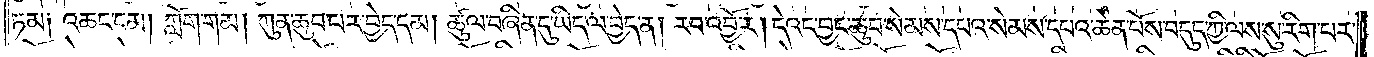ཏམ། འཆང་ངམ། ཀློག་གམ། ཀུན་ཆུབ་པར་བྱེད་དམ། ཚུལ་བཞིན་དུ་ཡིད་ལ་བྱེད་ན། རབ་འབྱོར། དེའང་བྱང་ཆུབ་སེམས་དཔའ་སེམས་དཔའ་ཆེན་པོས་བདུད་ཀྱི་ལས་སུ་རིག་པར་
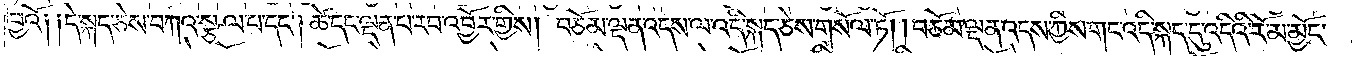བྱའོ༑ ༑དེ་སྐད་ཅེས་བཀའ་སྩལ་པ་དང༌། ཚེ་དང་ལྡན་པ་རབ་འབྱོར་གྱིས། བཅོམ་ལྡན་འདས་ལ་འདི་སྐད་ཅེས་གསོལ་ཏོ། །བཅོམ་ལྡན་འདས་ཀྱིས་གང་འདི་སྐད་དུ་འདིའི་རོ་མ་མྱོང་
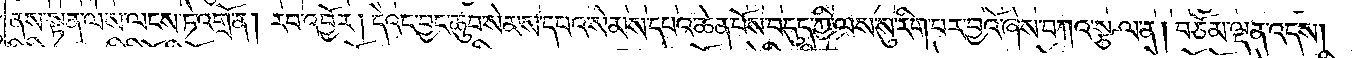ནས་སྟན་ལས་ལངས་ཏེ་འགྲོ་ན། རབ་འབྱོར། དེའང་བྱང་ཆུབ་སེམས་དཔའ་སེམས་དཔའ་ཆེན་པོས་བདུད་ཀྱི་ལས་སུ་རིག་པར་བྱའོ་ཞེས་བཀའ་སྩལ་ན། བཅོམ་ལྡན་འདས།
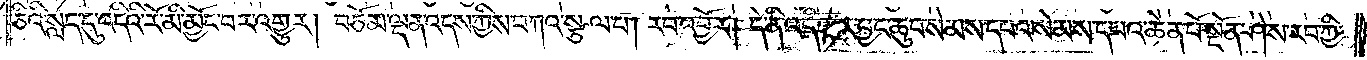ཅིའི་སླད་དུ་འདིའི་རོ་མི་མྱོང་བར་འགྱུར། བཅོམ་ལྡན་འདས་ཀྱིས་བཀའ་སྩལ་པ། རབ་འབྱོར། དེ་ནི་འདི་ལྟར་བྱང་ཆུབ་སེམས་དཔའ་སེམས་དཔའ་ཆེན་པོ་སྔོན་ཤེས་རབ་ཀྱི་
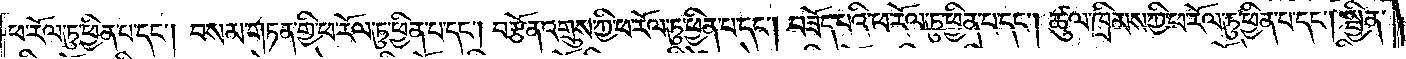ཕ་རོལ་ཏུ་ཕྱིན་པ་དང༌། བསམ་གཏན་གྱི་ཕ་རོལ་ཏུ་ཕྱིན་པ་དང༌། བརྩོན་འགྲུས་ཀྱི་ཕ་རོལ་ཏུ་ཕྱིན་པ་དང༌། བཟོད་པའི་ཕ་རོལ་ཏུ་ཕྱིན་པ་དང༌། ཚུལ་ཁྲིམས་ཀྱི་ཕ་རོལ་ཏུ་ཕྱིན་པ་དང༌། སྦྱིན་
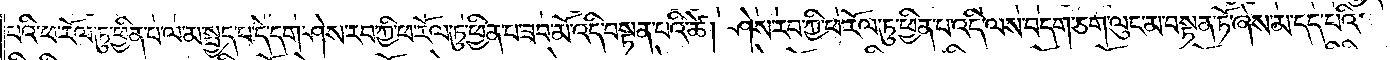པའི་ཕ་རོལ་ཏུ་ཕྱིན་པ་ལ་མ་སྤྱད་པ་དེ་དག་ཤེས་རབ་ཀྱི་ཕ་རོལ་ཏུ་ཕྱིན་པ་ཟབ་མོ་འདི་བསྟན་པའི་ཚེ། ཤེས་རབ་ཀྱི་ཕ་རོལ་ཏུ་ཕྱིན་པ་འདི་ལས་བདག་ཅག་ལུང་མ་བསྟན་ཏོ་ཞེས་མ་དད་པའི་
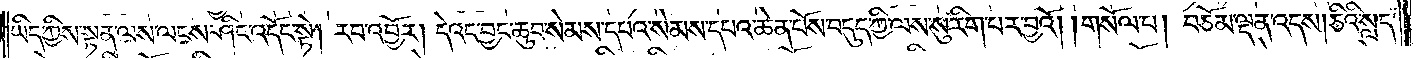ཡིད་ཀྱིས་སྟན་ལས་ལངས་ཤིང་འདོང་སྟེ། རབ་འབྱོར། དེའང་བྱང་ཆུབ་སེམས་དཔའ་སེམས་དཔའ་ཆེན་པོས་བདུད་ཀྱི་ལས་སུ་རིག་པར་བྱའོ། །གསོལ་པ། བཅོམ་ལྡན་འདས། ཅིའི་སླད་
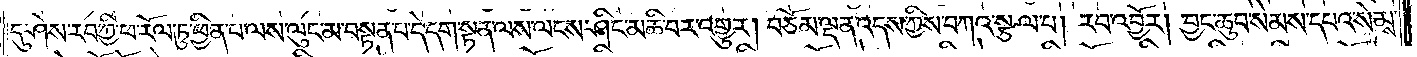དུ་ཤེས་རབ་ཀྱི་ཕ་རོལ་ཏུ་ཕྱིན་པ་ལས་ལུང་མ་བསྟན་པ་དེ་དག་སྟན་ལས་ལངས་ཤིང་མཆི་བར་འགྱུར། བཅོམ་ལྡན་འདས་ཀྱིས་བཀའ་སྩལ་པ། རབ་འབྱོར། བྱང་ཆུབ་སེམས་དཔའ་སེམས་
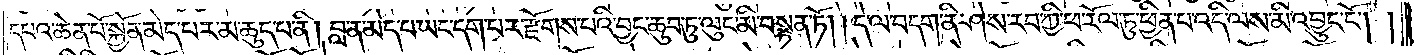དཔའ་ཆེན་པོ་སྐྱོན་མེད་པར་མ་ཆུད་པ་ནི། བླ་ན་མེད་པ་ཡང་དག་པར་རྫོགས་པའི་བྱང་ཆུབ་ཏུ་ལུང་མི་བསྟན་ཏོ། །དེ་ལ་བདག་ནི་ཤེས་རབ་ཀྱི་ཕ་རོལ་ཏུ་ཕྱིན་པ་འདི་ལས་མི་འབྱུང་ངོ༌། །
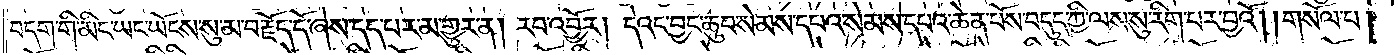བདག་གི་མིང་ཡང་ཡོངས་སུ་མ་བརྗོད་དོ་ཞེས་དད་པར་མ་གྱུར་ན། རབ་འབྱོར། དེའང་བྱང་ཆུབ་སེམས་དཔའ་སེམས་དཔའ་ཆེན་པོས་བདུད་ཀྱི་ལས་སུ་རིག་པར་བྱའོ། །གསོལ་པ།
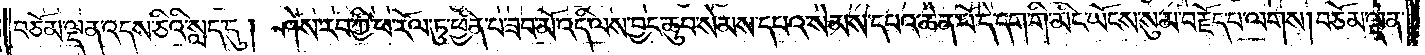བཅོམ་ལྡན་འདས་ཅིའི་སླད་དུ། ཤེས་རབ་ཀྱི་ཕ་རོལ་ཏུ་ཕྱིན་པ་ཟབ་མོ་འདི་ལས་བྱང་ཆུབ་སེམས་དཔའ་སེམས་དཔའ་ཆེན་པོ་དེ་དག་གི་མིང་ཡོངས་སུ་མ་བརྗོད་པ་ལགས། བཅོམ་ལྡན་
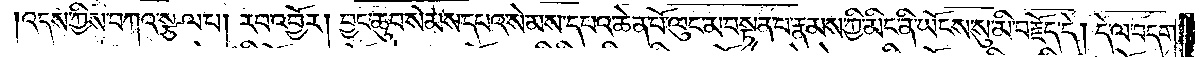འདས་ཀྱིས་བཀའ་སྩལ་པ། རབ་འབྱོར། བྱང་ཆུབ་སེམས་དཔའ་སེམས་དཔའ་ཆེན་པོ་ལུང་མ་བསྟན་པ་རྣམས་ཀྱི་མིང་ནི་ཡོངས་སུ་མི་བརྗོད་དེ། དེ་ལ་བདག་
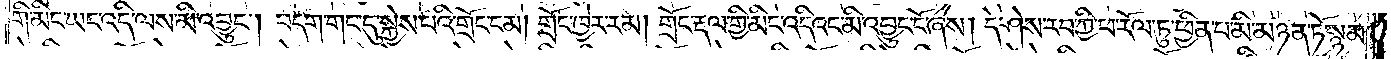གི་མིང་ཡང་འདི་ལས་མི་འབྱུང༌། བདག་གང་དུ་སྐྱེས་པའི་གྲོང་ངམ། གྲོང་ཁྱེར་རམ། གྲོང་རྡལ་གྱི་མིང་འདིའང་མི་འབྱུང་ངོ་ཞེས། དེ་ཤེས་རབ་ཀྱི་ཕ་རོལ་ཏུ་ཕྱིན་པ་མི་མཉན་ཏོ་སྙམ་
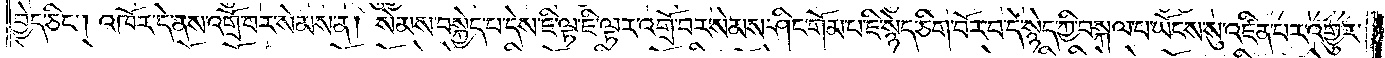བྱེད་ཅིང༌། འཁོར་དེ་ནས་འགྲོ་བར་སེམས་ན། སེམས་བསྐྱེད་པ་དེས་ཇི་ལྟ་ཇི་ལྟར་འགྲོ་བར་སེམས་ཤིང་གོམ་པ་ཇི་སྙེད་ཅིག་བོར་བ་དེ་སྙེད་ཀྱི་བསྐལ་བ་ཡོངས་སུ་འཛིན་པར་འགྱུར་
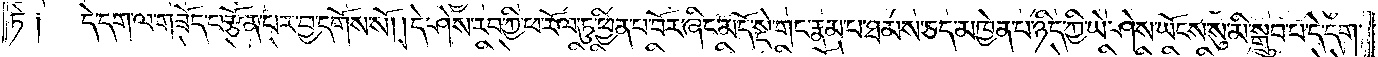ཏེ༑   དེ་དག་ལ་བཟོད་པ་ལ་བརྩོན་པར་བྱ་དགོས་སོ། །དེ་ཤེས་རབ་ཀྱི་ཕ་རོལ་ཏུ་ཕྱིན་པ་བོར་ཞིང་མདོ་སྡེ་གང་རྣམ་པ་ཐམས་ཅད་མཁྱེན་པ་ཉིད་ཀྱི་ཡེ་ཤེས་ཡོངས་སུ་མི་སྒྲུབ་པ་དེ་དག་
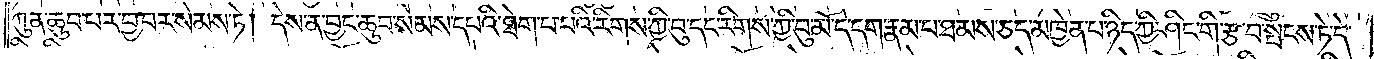ཀུན་ཆུབ་པར་བྱ་བར་སེམས་ཏེ། དེས་ན་བྱང་ཆུབ་སེམས་དཔའ་ཐེག་པ་པའི་རིགས་ཀྱི་བུ་དང་རིགས་ཀྱི་བུ་མོ་དེ་དག་རྣམ་པ་ཐམས་ཅད་མཁྱེན་པ་ཉིད་ཀྱི་ཤིང་གི་རྩ་བ་སྤངས་ཏེ་དེ་
